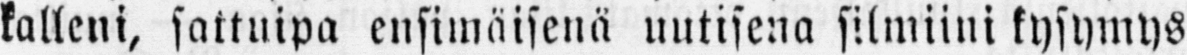kalleni, sattuipa ensimäisenä uutisena silmiini kysymys
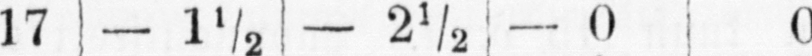17 — 1½ — 2½ — 0 0
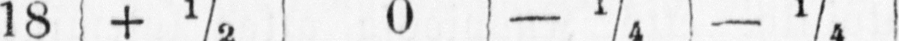18 + ½ 0 - ¼ - ¼
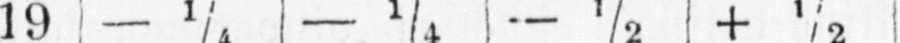19 - ¼ - ¼ -½ + ½
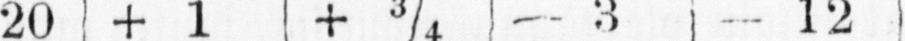20 + 1 + ¾ - 3 - 13
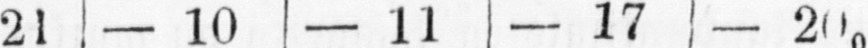21 - 10 — 11 — 17 — 20
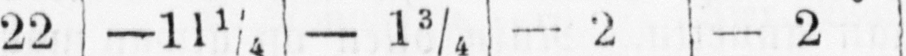22 - 11¼ - 1¾ - 2 - 2
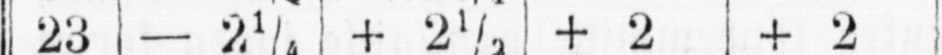23 - 2¼ + 2½ + 2 + 2
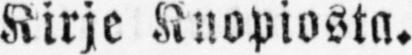Kirje Kuopiosta.
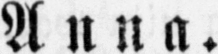Anna.
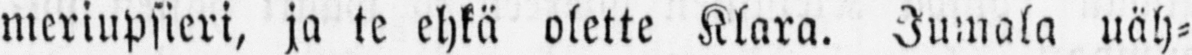meriupsieri, ja te ehkä olette Klara. Jumala näh-
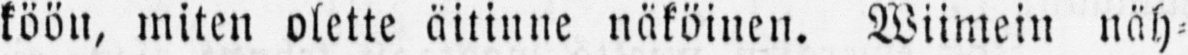köön, miten olette äitinne näköinen. Wiimein näh-
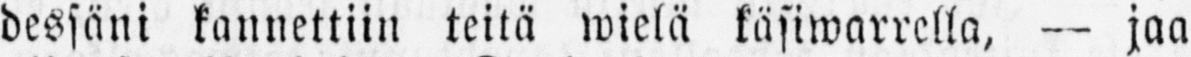dessäni kannettiin teitä wielä käsiwarrella, — jaa
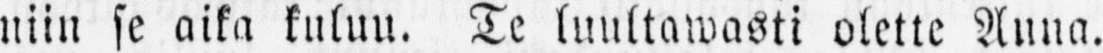niin se aika kuluu. Te luultawasti olette Anna.
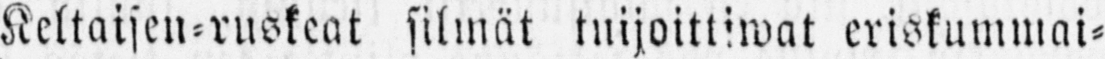Keltaisen-ruskeat silmät tuijoitliwat eriskummai-
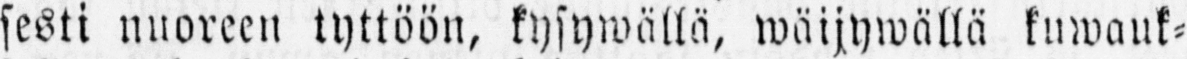sesti nuoreen tyttöön, kysywällä, wäijywällä kuwauk-
